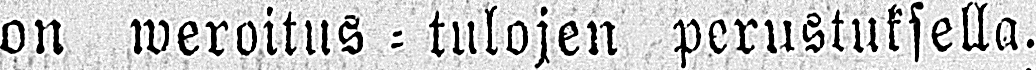on weroitus - tulojen perustuksella.
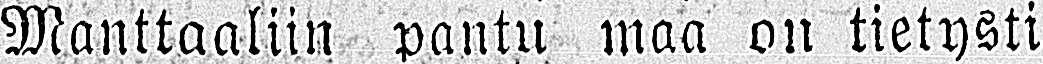Manttaaliin pantu maa on tietysti
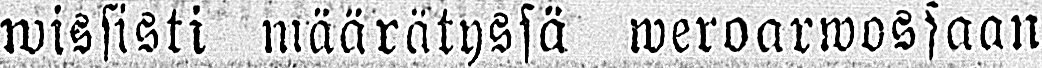wissisti määrätyssä weroarwossaan
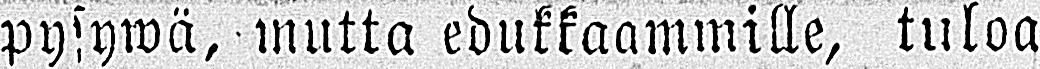pysywä, mutta edukkaammille, tuloa
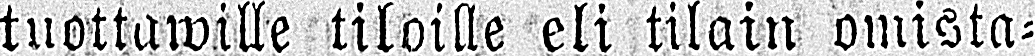tuottawille tiloille eli tilain omista-
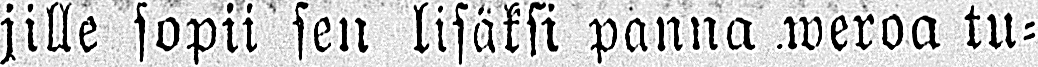jille sopii sen lisäksi panna weroa tu-
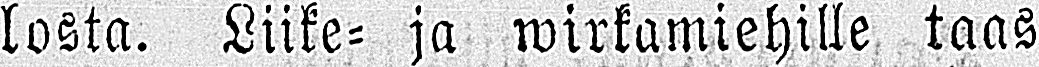losta. Liike- ja wirkamiehille taas
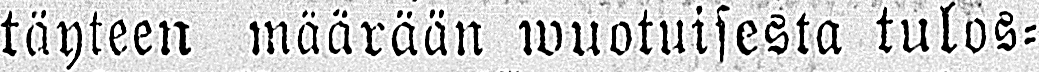täyteen määrään wuotuisesta tulos-
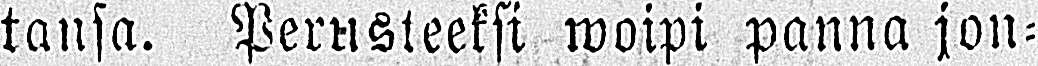tansa. Perusteeksi woipi panna jon-
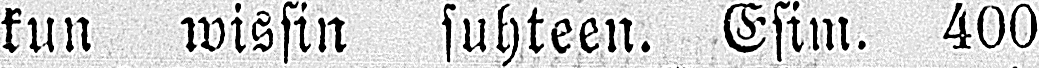kun wissin suhteen. Esim. 400
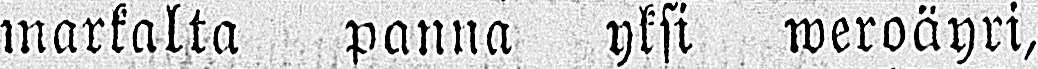markalta panna yksi weroäyri,
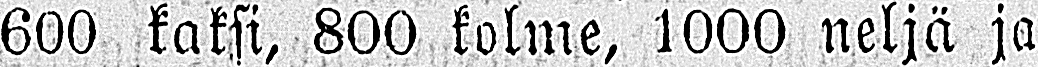600 kaksi, 800 kolme, 1000 neljä ja
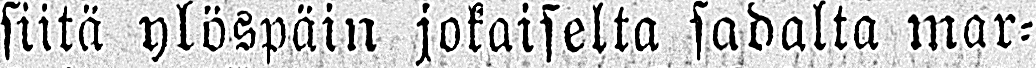siitä ylöspäin jokaiselta sadalta mar-
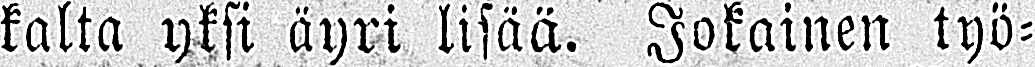kalta yksi äyri lisää. Jokainen työ-
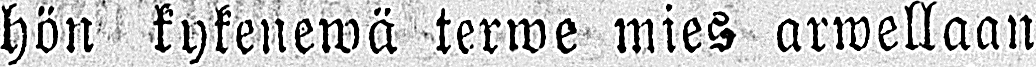hön kykenewä terwe mies arwellaan
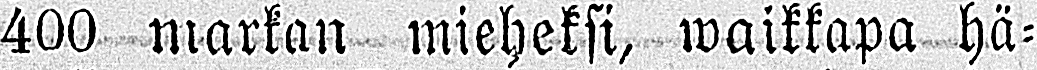400 markan mieheksi, waikkapa hä-
